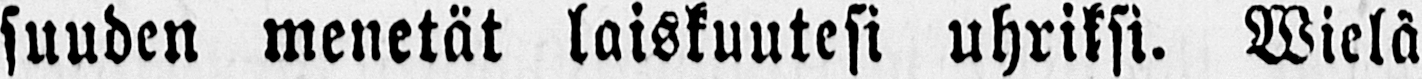suuden menetät laiskuutesi uhriksi. Wielä
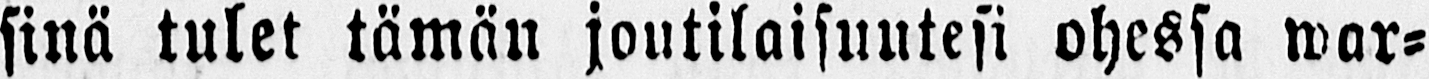sinä tulet tämän joutilaisuutesi ohessa war-
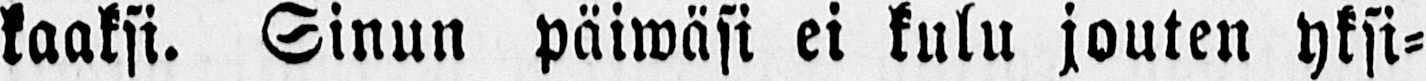kaaksi. Sinun päiwäsi ei kulu jouten yksi-
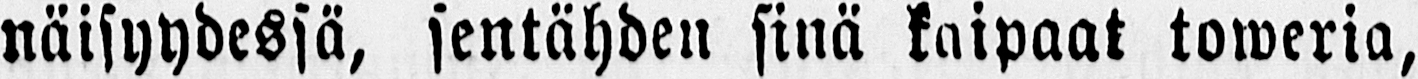näisyydessä, sentähden sinä kaipaat toweria,
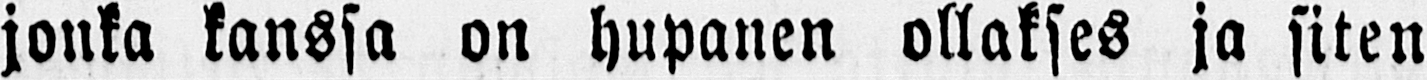jonka kanssa on hupanen ollakses ja siten
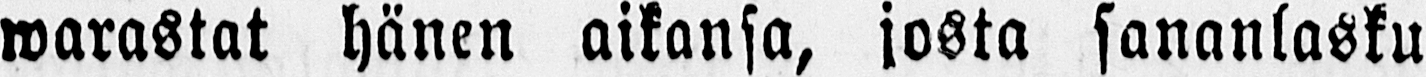warastat hänen aikansa, josta sananlasku
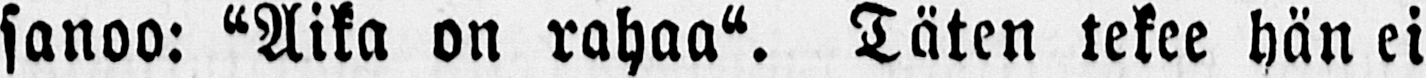sanoo: “Aika on rahaa“. Täten tekee hän ei
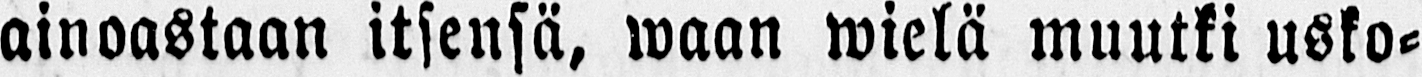ainoastaan itsensä, waan wielä muutki usko-
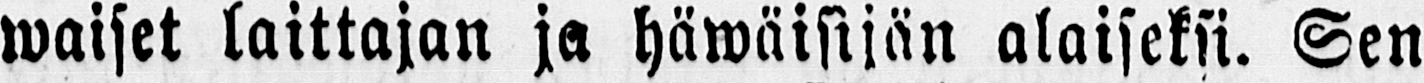waiset laittajan ja häwäisijän alaiseksi. Sen
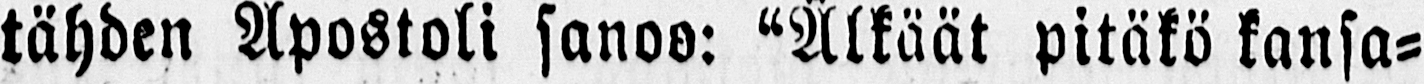tähden Apostoli sanoo: “Älkäät pitäkö kansa-
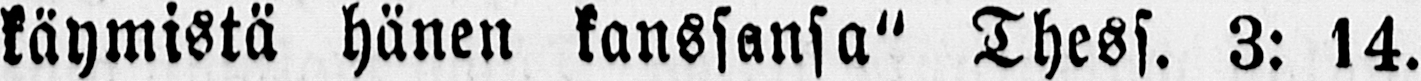käymistä hänen kanssansa“ Thess. 3: 14.
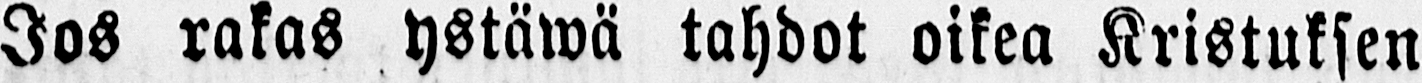Jos rakas ystäwä tahdot oikea Kristuksen
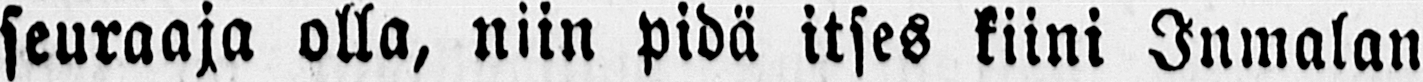seuraaja olla, niin pidä itses kiini Jumalan
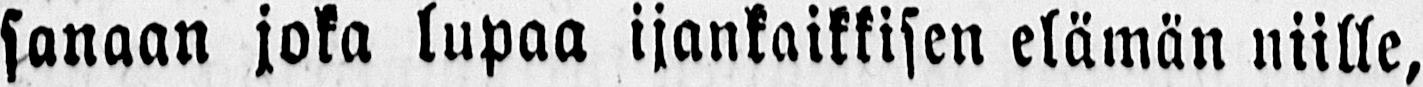sanaan joka lupaa ijankaikkisen elämän niille,
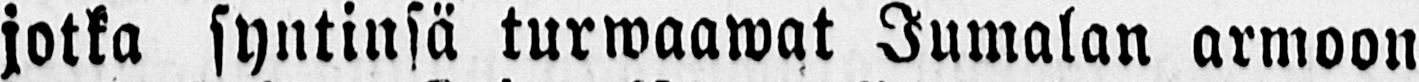jotka syntinsä turwaawat Jumalan armoon
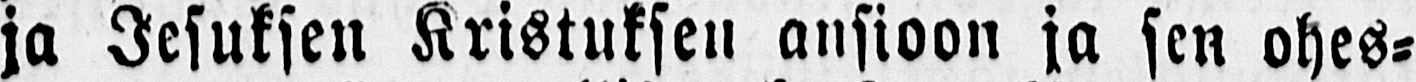ja Jesuksen Kristuksen ansioon ja sen ohes-
